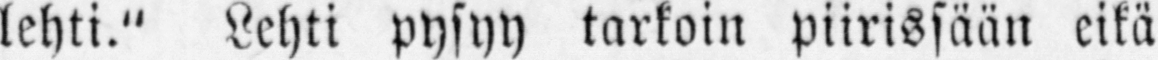lehti." Lehti pysyy tarkoin piirissään eikä
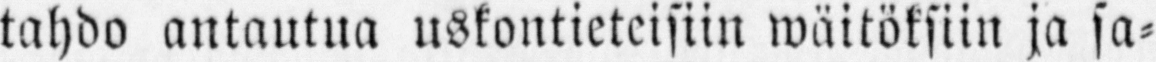tahdo antautua uskontieteisiin wäitöksiin ja sa-
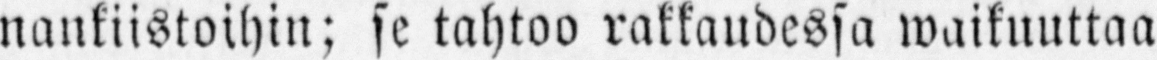nankiistoihin; se tahtoo rakkaudessa waikuuttaa
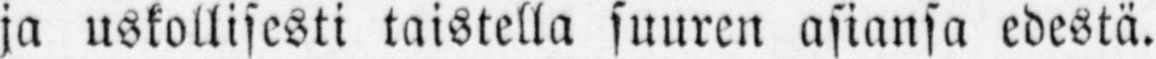ja uskollisesti taistella suuren asiansa edestä.
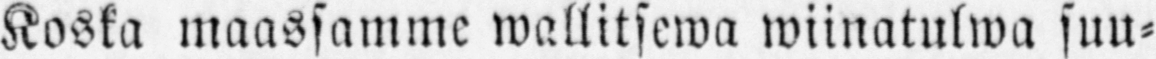Koska maassamme wallitsewa wiinatulwa suu-
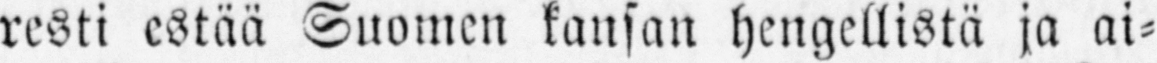resti estää Suomen kansan hengellistä ja ai-
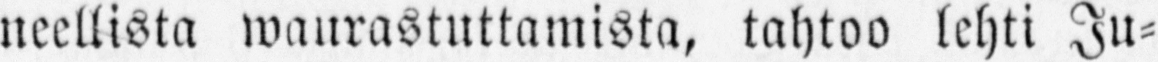neellista waurastuttamista, tahtoo lehti Ju-
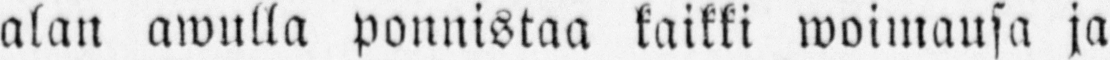malan awulla ponnistaa kaikki woimausa ja
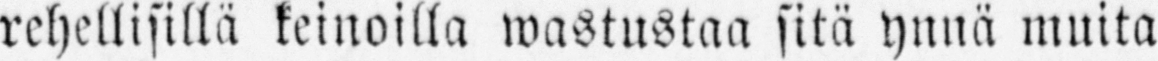rehellisillä keinoilla wastustaa sitä ynnä muita
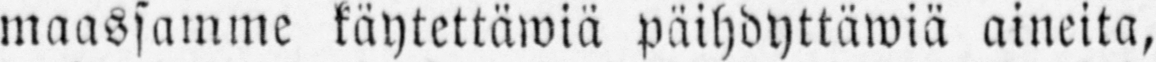maassamme käytettäwiä päihdyttäwiä aineita,
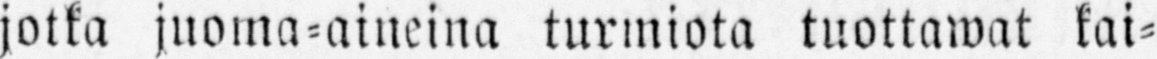jotka juoma-aineina turmiota tuottawat kai-
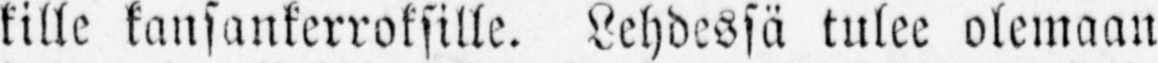kille kansankerroksille. Lehdessä tulee olemaan
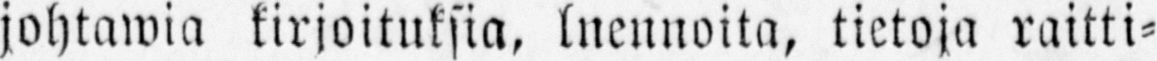johtawia kirjoituksia, luennotta, tietoja raitti-
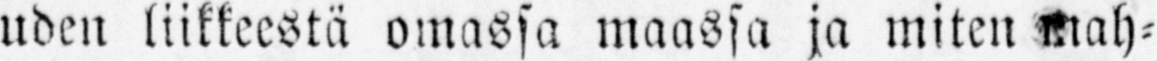uden liikkeestä omassa maassa ja miten Mah-
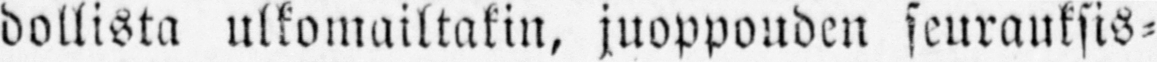dollista ulkomailtakin, juoppouden seurauksis-
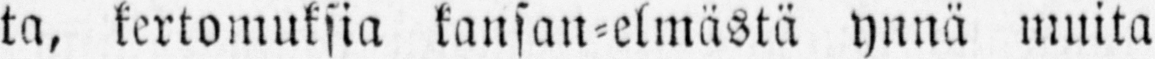ta, kertomuksia kansan-elmästä ynnä muita
